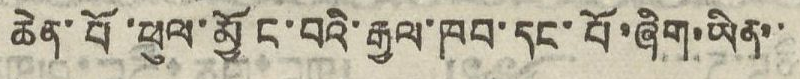ཆེན་པོ་ཕུལ་མྱོང་བའི་རྒྱལ་ཁབ་དང་པོ་ཞིག་ཡིན་་
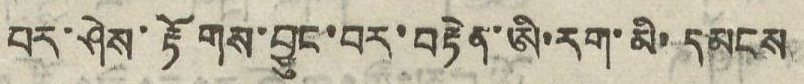པར་ཤེས་རྟོགས་བྱུང་བར་བརྟེན་ཨི་རག་མི་དམངས
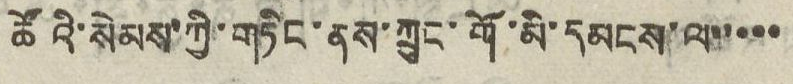ཚོའི་སེམས་ཀྱི་གཏིང་ནས་ཀྲུང་གོ་མི་དམངས་ལ་་་་་
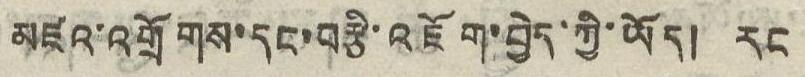མཛའ་འགྲོགས་དང་བརྩི་འཇོག་བྱེད་ཀྱི་ཡོད། རང
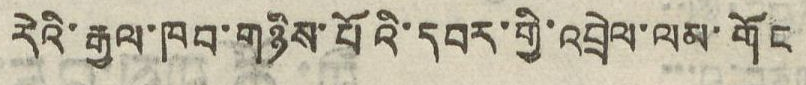རེའི་རྒྱལ་ཁབ་གཉིས་པོའི་དབར་གྱི་འབྲེལ་ལམ་གོང
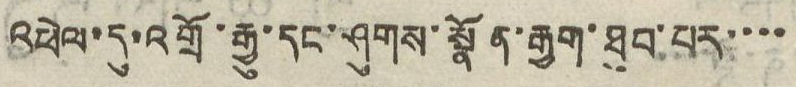འཕེལ་དུ་འགྲོ་རྒྱུ་དང་ཤུགས་སྣོན་རྒྱག་ཐུབ་པར་་་་
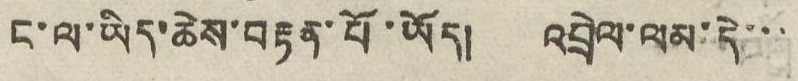ང་ལ་ཡིད་ཆེས་བརྟན་པོ་ཡོད། འབྲེལ་ལམ་དེ་་་
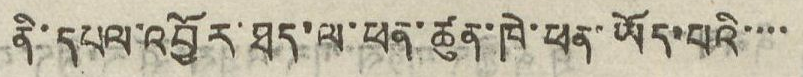ནི་དཔལ་འབྱོར་ཐད་ལ་ཕན་ཚུན་ཁེ་ཕན་ཡོད་པའི་་་་
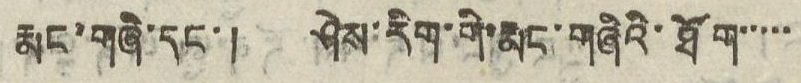རྨང་གཞི་དང་། ཤེས་རིག་གི་རྨང་གཞིའི་ཐོག་་་་་
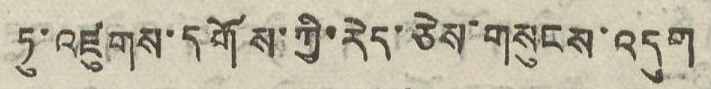ཏུ་འཛུགས་དགོས་ཀྱི་རེད་ཅེས་གསུངས་འདུག
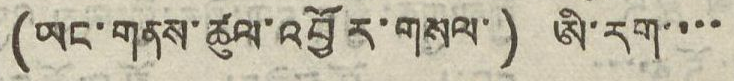(ཡང་གནས་ཚུལ་འབྱོར་གསལ་) ཨི་རག་་་་
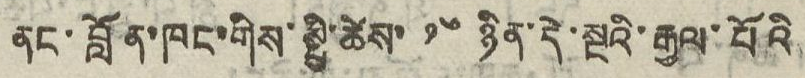ནང་བློན་ཁང་གིས་སྤྱི་ཚེས་ ༡༦ ཉིན་དེ་སྔའི་རྒྱལ་པོའི
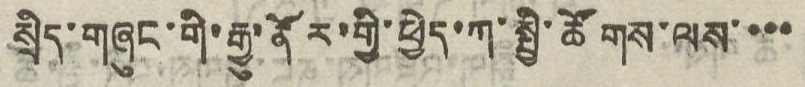སྲིད་གཞུང་གི་རྒྱུ་ནོར་གྱི་ཕྱེད་ཀ་སྤྱི་ཚོགས་ལས་་་་
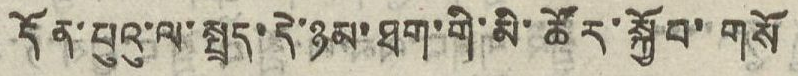དོན་པུའུ་ལ་སྤྲད་དེ་ཉམ་ཐག་གི་མི་ཚོར་སྐྱོབ་ གསོ
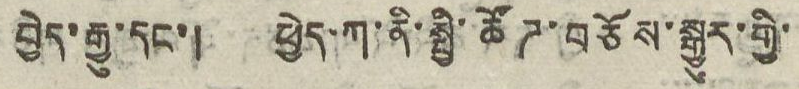བྱེད་རྒྱུ་དང་། ཕྱེད་ཀ་ནི་སྤྱི་ཚོཌ་བཅོས་སྒྱུར་གྱི་
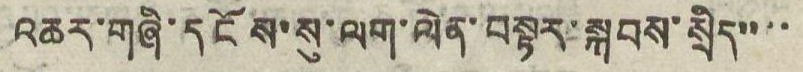འཆར་གཞི་དངོས་སུ་ལག་ལེན་བསྟར་སྐབས་སྲིད་་་་
